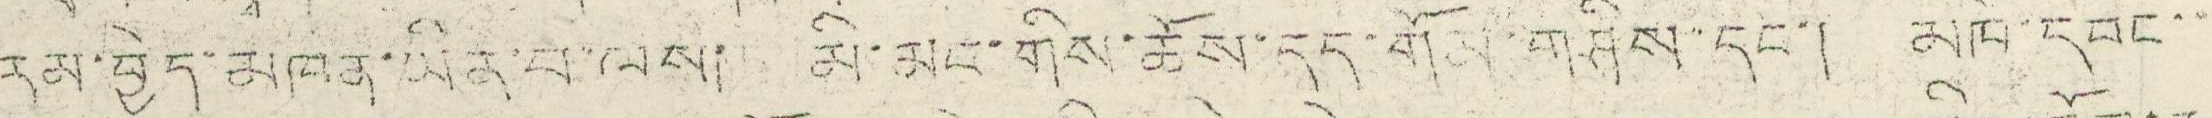རམ་བྱེད་མཁན་ཡིན་པ་ལས། མི་མང་གིས་ཆོས་དད་གོམ་གཤིས་དང་། མཁེ་དབང་་
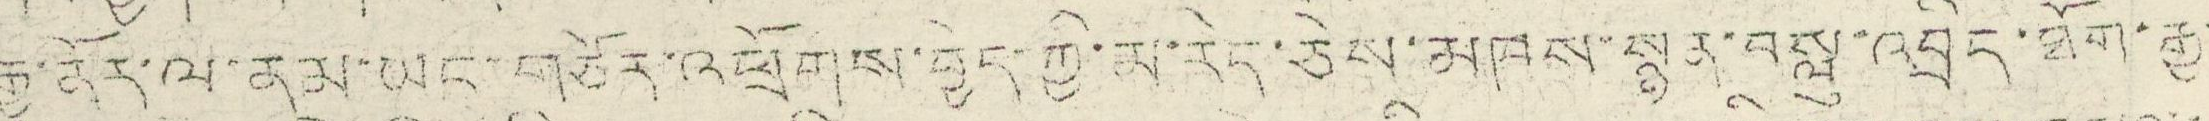རྒྱུ་ནོར་ལ་ནམ་ཡང་གཙེར་འཕྲོགས་བྱེད་ཀྱི་མ་རེད་ཅེས་མཁས་སྙན་བསླུ་འབྲིད་ཐོག་རྒྱ་
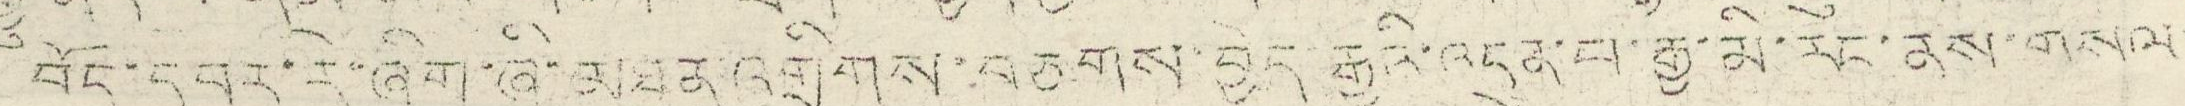བོད་དབར་རེ་ཞིག་ཞི་མཐུན་འགྲིགས་བཅགས་བྱེད་རྒྱུའི་འདུན་པ་རྒྱ་མི་རང་ནས་གསལ་
